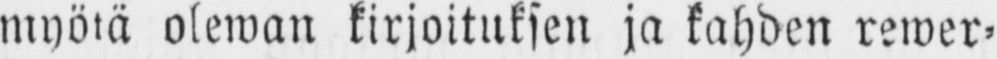myötä olewan kirjoituksen ja kahden rewer-
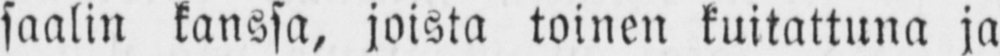saalin kanssa, joista toinen kuitattuna ja
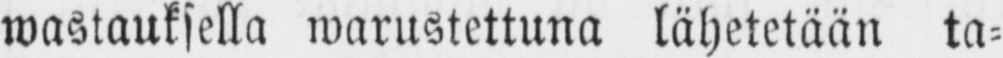wastauksella warustettuna lähetetään ta-
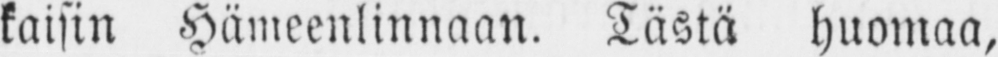kaisin Hämeenlinnaan. Tästä huomaa,
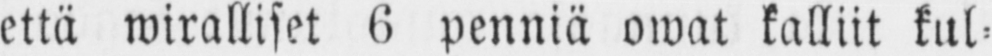että wiralliset 6 penniä owat kalliit kul-
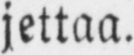jettaa.
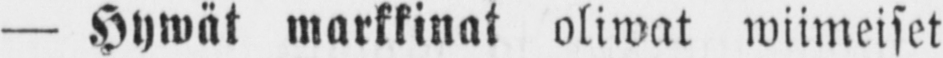— Hywät markkinat oliwat wiimeiset
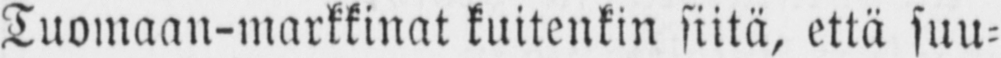Tuomaan-markkinat kuitenkin siitä, että suu-
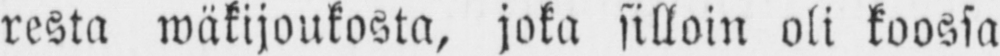resta wäkijoukosta, joka silloin oli koossa
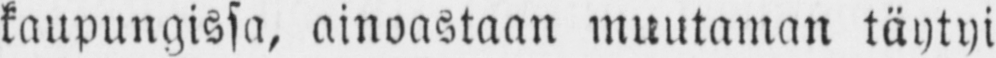kaupungissa, ainoastaan muutaman täytyi
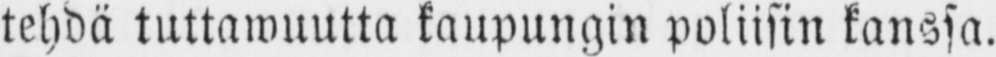tehdä tuttawuutta kaupungin poliisin kanssa.
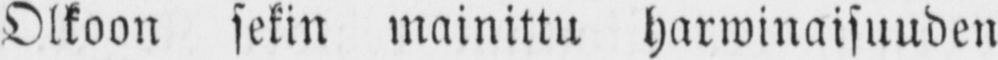Olkoon sekin mainittu harwinaisuuden
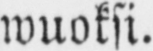wuoksi.
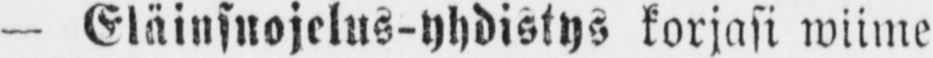— Eläinsuojelus-yhdistys korjasi wiime
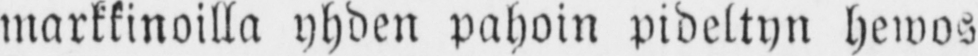markkinoilla yhden pahoin pideltyn hewos
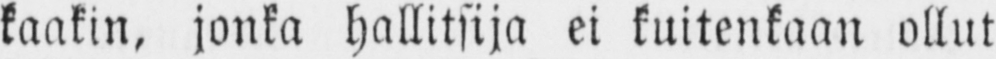kaakin, jonka hallitsija ei kuitenkaan ollut
